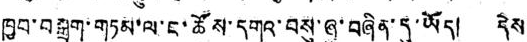ཁྱབ་བསྒྲག་གཏམ་ལ་ང་ཚོས་དགའ་བསུ་ཞུ་བཞིན་དུ་ཡོད། དེས་
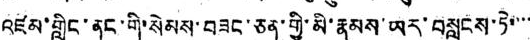འཛམ་གླིང་ནང་གི་སེམས་བཟང་ཅན་གྱི་མི་རྣམས་ཡར་བསླངས་ཏེ་་་་
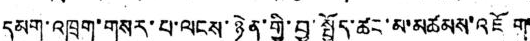དམག་འཁྲུག་གསར་པ་ལངས་ཉེན་གྱི་བྱ་སྤྱོད་ཚང་མ་མཚམས་འཇོག་
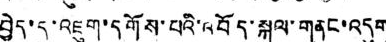བྱེད་དུ་འཇུག་དགོས་པའི་འབོད་སྐུལ་གནང་འདུག
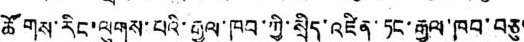ཚོགས་རིང་ལུགས་པའི་རྒྱལ་ཁབ་ཀྱི་སྲིད་འཛིན་ཏང་རྒྱལ་ཁབ་བཅུ་
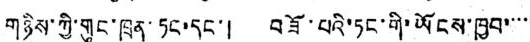གཉིས་ཀྱི་གུང་ཁྲན་ཏང་དང་། བཟོ་པའི་ཏང་གི་ཡོངས་ཁྱབ་་་་་
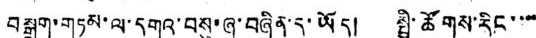བསྒྲག་གཏམ་ལ་དགའ་བསུ་ཞུ་བཞིན་དུ་ཡོད། སྤྱི་ཚོགས་རིང་་་་
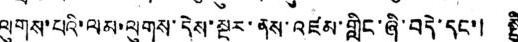ལུགས་པའི་ལས་ལུགས་དེས་སྔར་ནས་འཛམ་གླིང་ཞི་བདེ་དང་། སྤྱི་
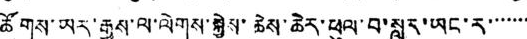ཚོགས་ཡར་རྒྱས་ལ་ལེགས་སྐྱེས་ཆེས་ཆེར་ཕུལ་བ་སླར་ཡང་ར་་་་་་་
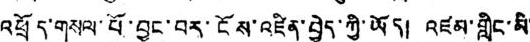འཕྲོད་གསལ་པོ་བྱུང་བར་ངོས་འཛིན་བྱེད་ཀྱི་ཡོད། འཛམ་གླིང་མི་
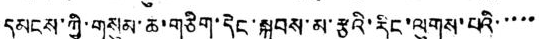དམངས་ཀྱི་གསུམ་ཆ་གཅིག་དེང་སྐབས་མ་རྩའི་རིང་ལུགས་པའི་་་་་
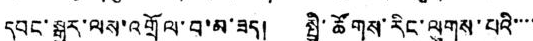དབང་སྒྱུར་ལས་འགྲོལ་བ་མ་ཟད། སྤྱི་ཚོགས་རིང་ལུགས་པའི་་་་
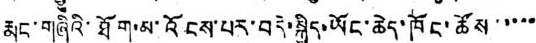རྨང་གཞིའི་ཐོག་མ་འོངས་པར་བདེ་སྐྱིད་ཡོང་ཆེད་ཁོང་ཚོས་་་་་
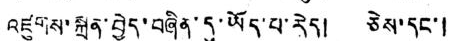འཛུགས་སྐྲུན་བྱེད་བཞིན་དུ་ཡོད་པ་རེད། ཅེས་དང་།
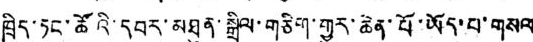ཁྲིད་ཏང་ཚོའི་དབར་མཐུན་སྒྲིལ་གཅིག་གྱུར་ཆེན་པོ་ཡོད་པ་གསལ
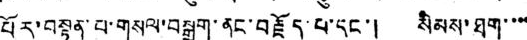པོར་བསྟན་པ་གསལ་བསྒྲག་ནང་བརྗོད་པ་དང་། སེམས་ཐག་་་་
